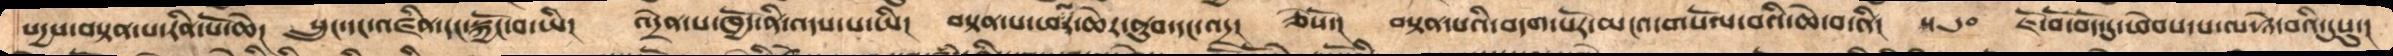སདྱས་བསྟན་པ་རིན་པོ་ཆེ།   སྲུང་དང་འཛིན་དང་སྐྱོང་བ་ཡི།   འདྲེན་པ་ཁྱོད་ནི་འདས་པ་ཡི།  བསྟན་པ་ཕལ་ཆེར་ནུབ་དང་འདྲ།  ཅེསོ་།  བསྟན་པའི་བདག་པོར་མངའ་གསོལ་བའི་ཆེ་བ་ནི།  ༥༦༠ ཇོ་བོ་བོད་དུ་ཕེབས་པ་ལ་ཉེ་བའི་དུསུ་།
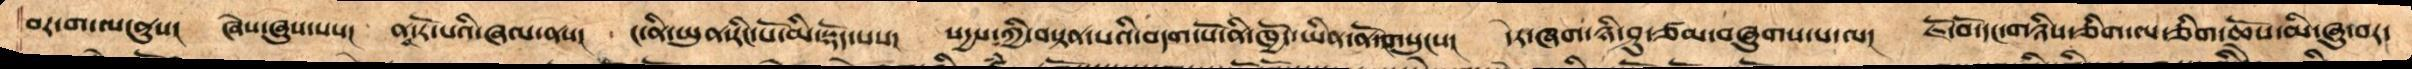བར་ག་ལ་ནུས།   ཞེས་ཞུས་པས།  ནཱ་རོ་པའི་ཞལ་ནས།  ང་ནི་ཡུན་རིང་པོ་མི་སྡོད་པས།  སདྱས་ཀྱི་བསྟན་པའི་བདག་པོ་ནི་ཁྱོད་ཡིན་ནོ་གསུངས།   དེར་ཞག་ཉི་ཤུ་ཙམ་བཞུགས་པ་ལ།  ཇོ་བོ་དང་གཉིས་ཅིག་ལ་ཅིག་ཆོས་ནི་མི་ཞུ་བར་
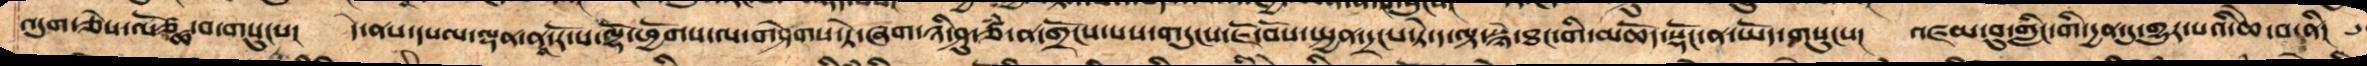འདུག་ཅེས་ལོཙྪ་བ་གསུངས།   དེ་ནས་དཔལ་ལྡན་ནཱ་རོ་པ་ལྷོ་ཕྱོགས་ལ་གཤེགས་ཏེ་ཞག་ཉི་ཤུ་ཙཾ་ན་གྲོངས་པས་གདུངས་ཇོ་བོས་སྤྱན་དྲངས་ཏེ་ད་ལྟ་སྙེ་ཐང་གི་མཆོད་སྡོང་ན་ཡོད་གསུངས།  འཛམ་བུ་གླིང་གི་དྱན་དུ་གྱུར་པའི་ཆེ་བ་ནི།
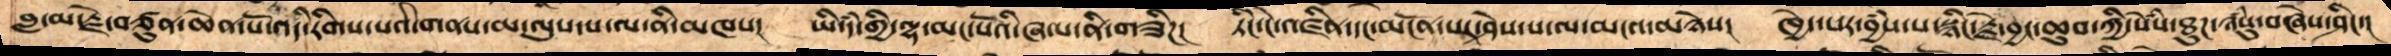བླ་མ་རྗེ་བཙུན་ཆེན་པོ་འདི་རིགས་པའི་གནས་མ་ལུས་པ་ལ་ནི་མཁས།  ཡི་དཾ་གྱི་ལྷ་མང་པོའི་ཞལ་ནི་གཟིཌ།   ཏིང་ངེ་འཛིན་དང་མངོན་པར་ཤེས་པ་ལ་མངའ་མཉེས།  ཁྱེད་པར་བྱཾས་པ་སྙིང་རྗེ་བྱང་ཆུབ་ཀྱི་སེཾས་ཐུཌ་ཉཾསུ་བཞེས་ཤིང་།
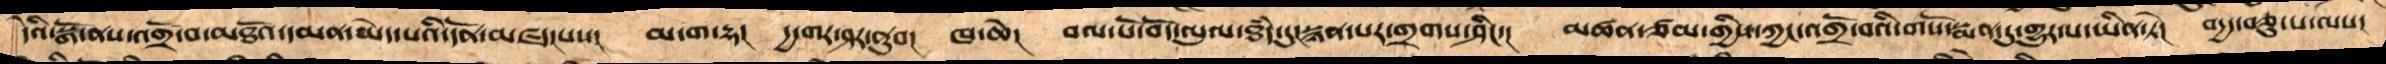དེའི་སྒོ་ནས་འགྲོ་བ་མཐོའ་དམན་མེད་པའི་དོན་མཛད་པས།  མ་ག་དྷ།  དྱ་གར་ཤར་ནུབ།  ཁ་ཆེ།  བལ་པོ་བོད་ཡུལ་ཐཾད་དུ་སྙན་པར་གྲགས་ཤིང་།   མཚན་ཙམ་གྱིས་ཀྱང་འགྲོ་བའི་གསོ་སྨན་དུ་གྱུར་པ་ཡིན་ཏེ།  བདྱད་བཅུ་པ་ལས།
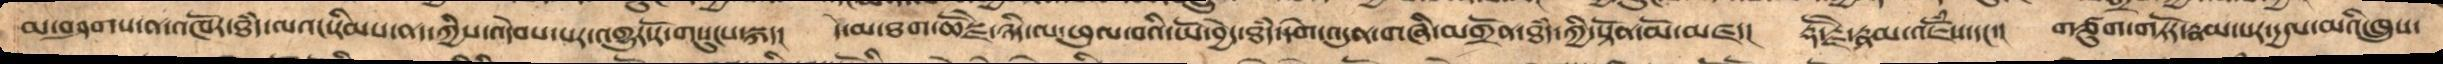མ་བཤགས་ན་འཁོར་ཐཾད་ལའང་རིམས་ནད་ཀྱིས་འདེབས་པར་འགྱུར་རོ་གསུངས་སྐད།  དེ་མ་ཐག་ཆོསྗེ་ཉིད་ལ་ཕུལ་བའི་ཡོ་བྱད་ཐཾད་དགེ་འདུན་གཞི་མགྲོན་ཐཾད་ཀྱི་སྟོན་མོ་མཛད།   རྡོ་རྗེ་རྣམ་འཇོཾས་དང་།  གཙུག་གཏོར་རྣམ་པར་དྱལ་མའི་ཁྲུས་
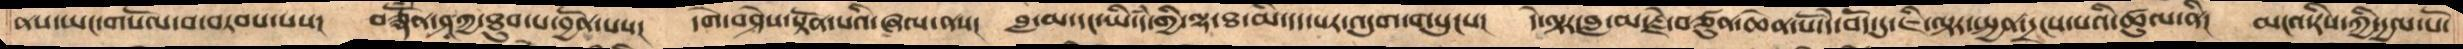ནས་ཡང་གསོལ་བ་བཏབ་པས།   བཅྡོཾན་ཤཱཀྱ་ཐུབ་པ་བྱོན་པས།   དགེ་བཤེས་སྟོན་པའི་ཞལ་ནས།   བླ་མ་དང་ཡི་དཾ་གྱི་ལྷ་ཐ་མི་དད་པར་འདུག་གསུངས།   དེ་ལྟར་བླ་མ་རྗེ་བཙུན་ཆེན་པོ་དེ་བོད་དུ་ཇི་ལྟར་སྤྱན་དྲངས་པའི་ཚུལ་ནི།   མངའ་རིས་ཀྱི་དྱལ་པོ་
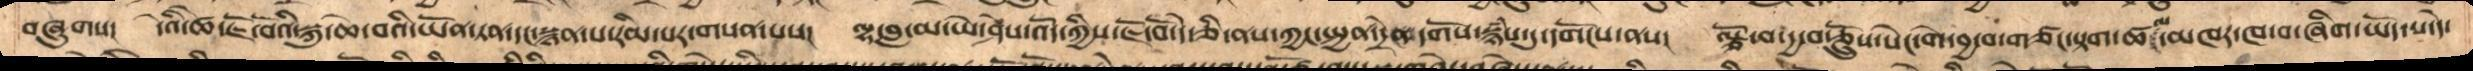བཞུགས།   དེའི་ཚེ་ཇོ་བོའི་སྐུ་ཆེ་བའི་ཡོན་ཏན་དང་སྙན་པ་རིམ་པར་གསན་པས།   ལྷ་བླ་མ་ཡེ་ཤེས་འོད་ཀྱིས་ཇོ་བོ་དེ་ཅི་ནས་ཀྱང་སྤྱན་དྲེན་དགོས་སྙཾས་དུ་དགོངས་ནས།   ལྩོ་བ་དྱ་བརྩྲོུས་སེང་གེ་བྱ་བགཙང་སྟགཚང་ལ་མཁར་ཁ་བ་ཞིག་ཡོད་པ་དེ་
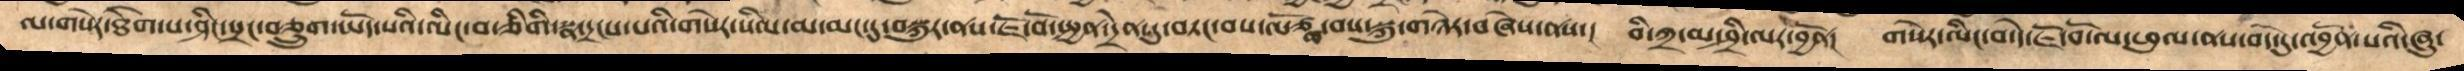ལ་གསེར་ཐིགས་ཤིང་སྲང་བཅྲུག་ཡོད་པའི་ལིང་བ་ཅིགི་སྣ་དྲངས་པའི་གསེར་སིལ་མ་མང་དུ་བསྐུར་ནས་ཇོ་བོ་སྤྱན་དྲེན་དུ་བཏང་བས་ལོཙྪ་བས་སྐུ་གཉེར་བཞེས་ནས།   བི་ཀྲ་མ་ཤྲི་ལར་བྱོན།  གསེར་ལིང་བ་དེ་ཇོ་བོ་ལ་ཕུལ་ནས་བོད་དུ་འབྱོན་པའི་ཞུ་
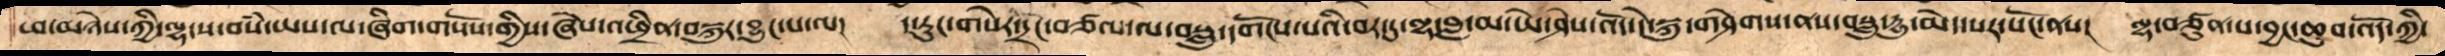ཕ་མཉེས་ཀྱི་ལྷ་ས་བསཾ་ཡས་ལ་ཞིག་གསོས་གྱིས་ཞེས་འཕྲིན་བསྐུར་བྱུང་པ་ལ།   ད་རུང་གསེར་དྲོང་བཙལ་ལ་བསླུ་དགོངས་པའི་བར་དུ་ལྷ་བླ་མ་ཡེ་ཤེས་འོད་དེ་སྐུ་གཤེགས་ནས་བསླུ་དྱུ་མེད་པར་སོང་ནས།  ལྷ་བཙུན་པ་བྱང་ཆུབ་འོད་ཀྱི་
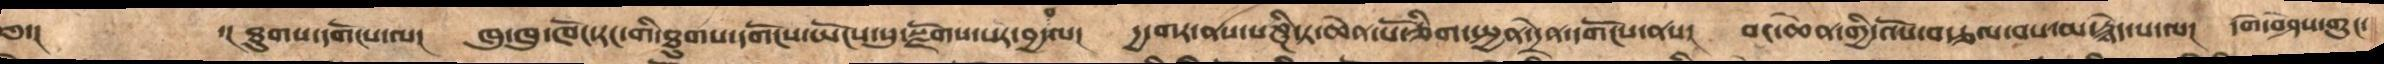༅་།     ་། ཐུགས་དགོངས་ལ།   ཁུ་ཁུ་ཁོང་རང་གི་ཐུགས་དགོངས་ཡོངས་སུ་སྫོགས་པར་བྱ་བ་ལ།   དྱ་གར་ནས་པཎྜི་ཏ་ཆེན་པོ་ཅིག་སྤྱན་དྲེན་དགོངས་ནས།   བང་ཆེན་གྱི་འོས་བརྩལ་བས་མ་རྙེད་པ་ལ།  དགེ་བཤེས་གུང་
